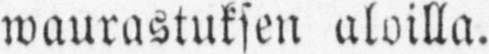waurastuksen aloilla.
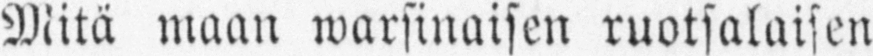Mitä maan warsinaisen ruotsalaisen
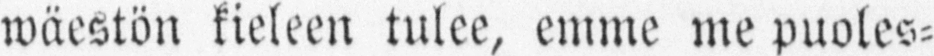wäestön kieleen tulee, emme me puoles-
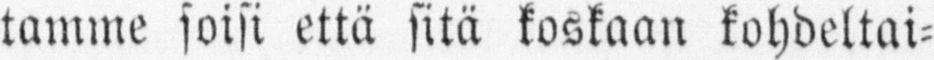tamme soisi että sitä koskaan kohdeltai-
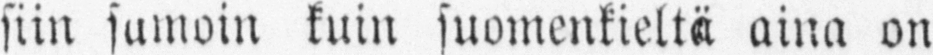siin samoin kuin suomenkieltä aina on
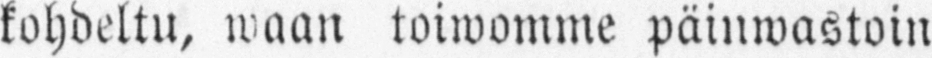kohdeltu, waan toiwomme päinwastoin
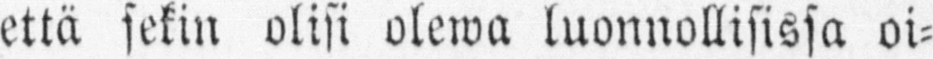että sekin olisi olewa luonnollisissa oi-
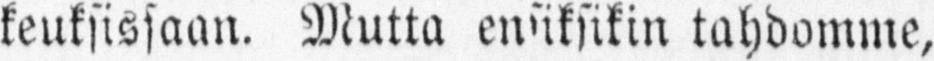keuksissaan. Mutta ensiksikin tahdomme,
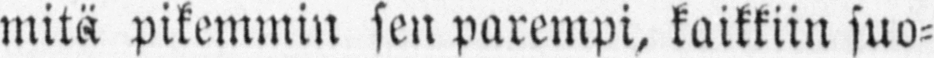mitä pikemmin sen parempi, kaikkiin suo-
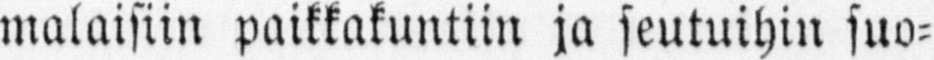malaisiin paikkakuntiin ja seutuihin suo-
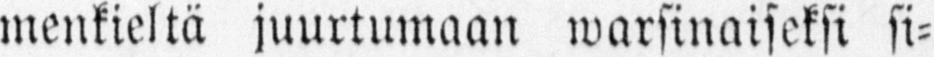menkieltä juurtumaan warsinaiseksi si-
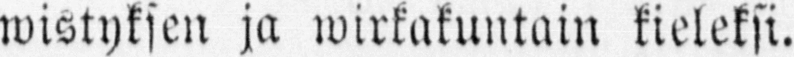wistyksen ja wirkakuntain kieleksi.
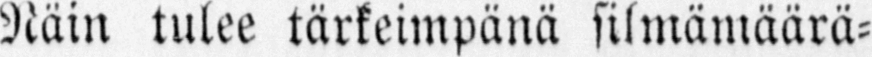Näin tulee tärkeimpänä silmämäärä-
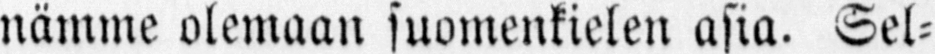nämme olemaan suomenkielen asia. Sel-
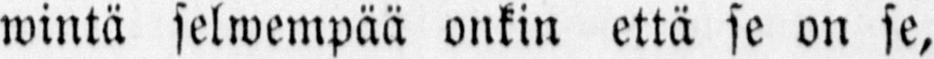wintä selwempää onkin että se on se,
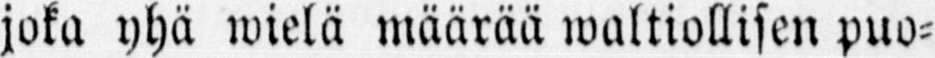joka yhä wielä määrää waltiollisen puo-
